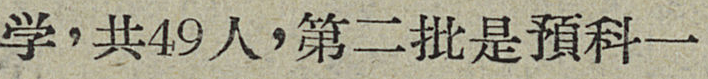学，共49人，第二批是預科一
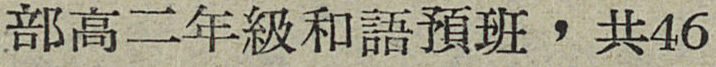部高二年級和語預班，共46
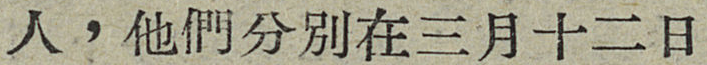人，他們分别在三月十二日
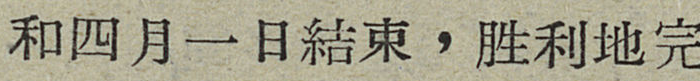和四月一日結束，胜利地完
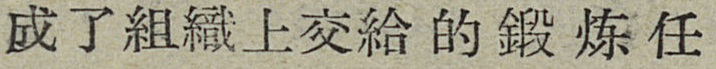成了組織上交給的鍛炼任
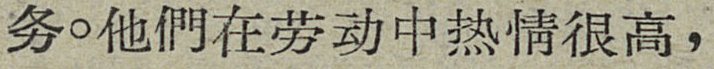务。他們在劳动中热情很高，
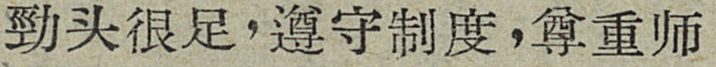勁头很足，遵守制度，尊重师
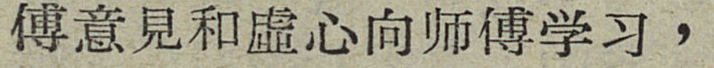傅意見和虛心向师傅学习，
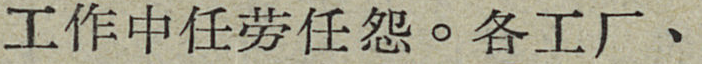工作中任劳任怨。各工厂、
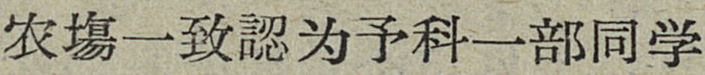农塲一致認为予科一部同学
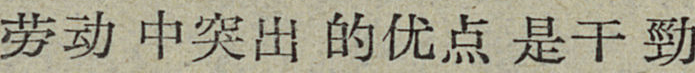劳动中突出的优点是干勁
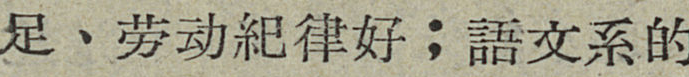足、劳动紀律好；語文系的
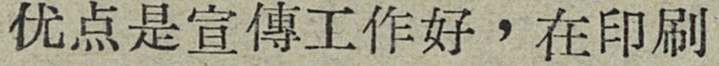优点是宣傳工作好，在印刷
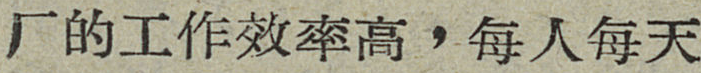厂的工作效率高，每人每天
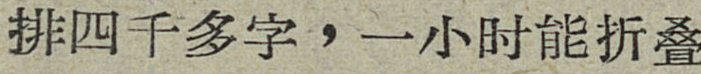排四千多字，一小时能折叠
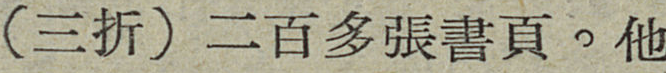（三折）二百多張書頁。他
